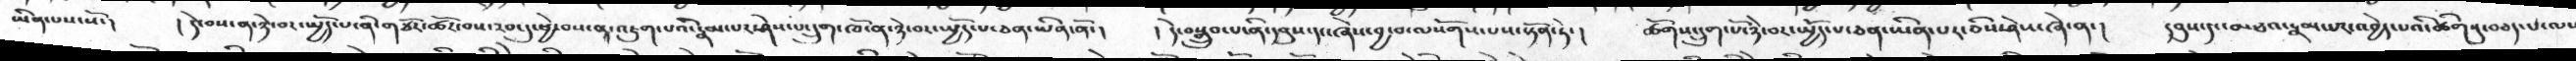ཡིན་པས་སོ་།  །དེ་བས་ན་ཉེ་བར་སྤྱོད་པ་ནི་གཙོར་ཚོར་བས་རབ་དུ་ཕྱེ་བས་ན་འཇུག་པའི་རྣམ་པར་ཤེས་པ་དྲུག་ཁོ་ན་ཉེ་བར་སྤྱོད་པ་ཅན་ཡིན་ནོ་།  །དེ་བསྒྲུབ་པ་ནི་དབུས་དང་ཞེས་བྱ་བ་ལསོགས་པས་སྟོན་ཏེ་།  ཚོགས་དྲུག་པོ་ཉེ་བར་སྤྱོད་པ་ཅན་ཡིན་པར་ཅིས་ཤེས་ཞེ་ན་།  དབུས་དང་མཐའ་རྣམ་པར་འབྱེད་པའི་ཚིགསུ་བཅད་པ་ལས
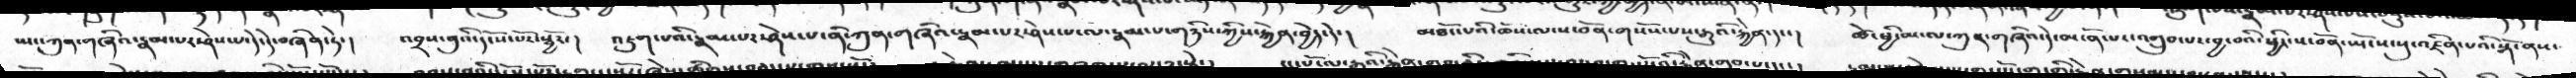ཡང་ཀུན་གཞིའ་རྣམ་པར་ཤེས་པ་དེ་དེ་བཞིན་ཏེ་།  འབྲས་བུའི་དངོས་པོར་སྦྱོར་།   འཇུག་པའི་རྣམ་པར་ཤེས་པ་ནི་ཀུན་གཞིའ་རྣམ་པར་ཤེས་པ་ལ་རྣམ་པ་གཉིས་ཀྱིས་རྐྱེན་བྱེད་དེ་།   མཐོང་པའི་ཆོས་ལ་ས་བོན་གསོས་པས་རྒྱུའི་རྐྱེན་དང་།   ཚེ་ཕྱི་མ་ལ་ཀུན་གཞིའ་དེ་མངོན་པར་འགྲུབ་པར་བྱ་བའི་ཕྱིར་ས་བོན་ཡོངས་སུ་འཛིན་པའི་སྒོ་ནས་
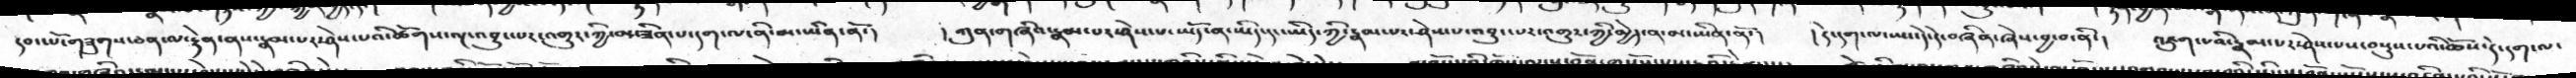རབ་ཡོང་གཟུགས་ཅན་ལ་རྟེན་ནས་རྣམ་པར་ཤེས་པའི་ཚོགས་ལྔ་འབྱུང་པར་འགྱུར་ཀྱི་མ་ཟིན་པ་དག་ལ་ནི་མ་ཡིན་ནོ་།   །ཀུན་གཞིའ་རྣམ་པར་ཤེས་པ་ཡོད་ན་ཡིད་དང་ཡིད་ཀྱི་རྣམ་པར་ཤེས་པ་འབྱུང་པར་འགྱུར་ཀྱི་མྱེད་ན་མ་ཡིན་ནོ་།   །དེ་དག་ལ་ཡང་དེ་དེ་བཞིན་ཞེས་བྱ་བ་ནི་།  འཇུག་པའི་རྣམ་པར་ཤེས་པས་བསྡུས་པའི་ཆོས་དེ་དག་ལ་
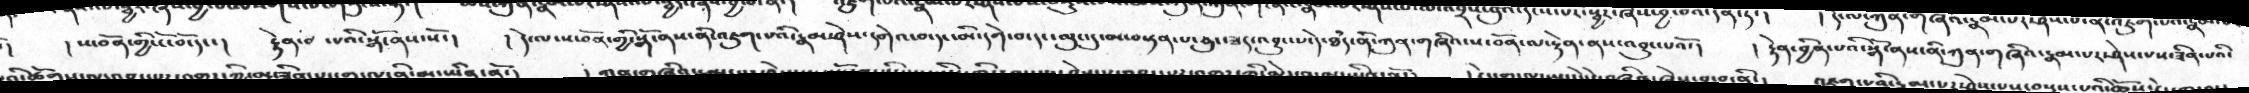་།  །ས་བོན་གྱི་ངོ་བོ་དང་།  རྟེན་པའི་སྒོ་ནས་སོ་།  །དེ་ལ་ས་བོན་གྱི་སྒོ་ནས་ནི་འཇུག་པའི་རྣམ་ཤེས་དགེའ་བ་དང་མི་དགེ་བ་དང་ལུང་དུ་མ་བསྟན་པ་ཅུང་ཟད་འབྱུང་པ་དེ་ཐདཾ་ནི་ཀུན་གཞིའ་ས་བོན་ལ་རྟེན་ནས་འབྱུང་པའོ་།  །རྟེན་བྱིན་པའི་སྒོ་ནས་ནི་ཀུན་གཞིའ་རྣམ་པར་ཤེས་པས་ཟིན་པའི་
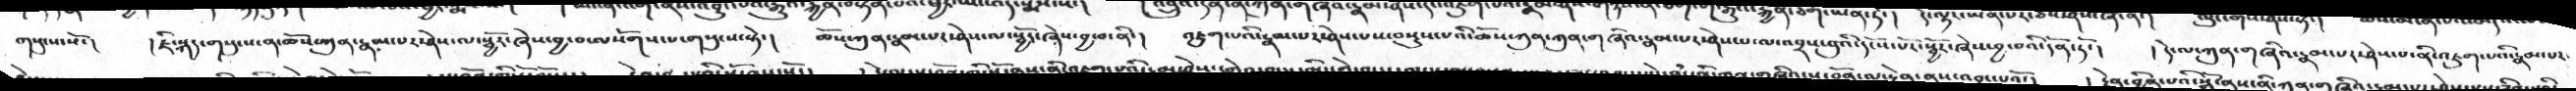གསུངས་སོ་།  །ཇི་སྐད་གསུངས་ན་ཆོས་ཀུན་རྣམ་པར་ཤེས་ལ་སྦྱོར་ཞེས་བྱ་བ་ལསོགས་པ་གསུངས་སྟེ་།  ཆོས་ཀུན་རྣམ་པར་ཤེས་པ་ལ་སྦྱོར་ཞེས་བྱ་བ་ནི་།  འཇུག་པའི་རྣམ་པར་ཤེས་པས་བསྡུས་པའི་ཆོས་ཀུན་ཀུན་གཞིའ་རྣམ་པར་ཤེས་པ་ལ་འབྲས་བུའི་དངོས་པོར་སྦྱོར་ཞེས་བྱ་བའི་དོན་ཏོ་།  །དེ་ལ་ཀུན་གཞིའ་རྣམ་པར་ཤེས་པ་ནི་འཇུག་པའི་རྣམ་པར་
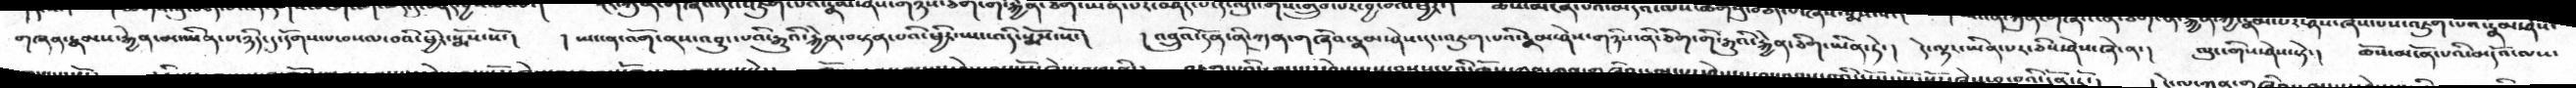གཞན་རྣམས་རྐྱེན་མ་ཡིན་པ་ཉིད་དུ་དོགས་པ་བསལ་བའི་ཕྱིར་སྨོས་སོ་།  །ཡང་ན་འགོ་ནས་འབྱུང་པའི་རྒྱུའི་རྐྱེན་བསྟན་པའི་ཕྱིར་ཡང་འདི་སྨོས་སོ་།   །འབྲུའི་དོན་ནི་ཀུན་གཞིའ་རྣམ་ཤེས་དང་འཇུག་པའི་རྣམ་ཤེས་གཉིས་ནི་ཅིག་གི་རྒྱུའི་རྐྱེན་ཅིག་ཡིན་ཏེ་།  དེ་ལྟར་ཡིན་པར་ཅིས་ཤེས་ཞེ་ན་།  ལུང་གིས་ཤེས་སྟེ་།  ཆོས་མངོན་པའི་མདོའ་ལས་
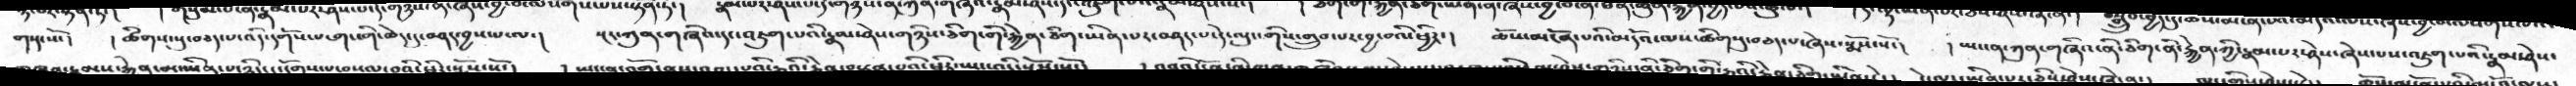གསུངསོ་།  །ཚིགས་སུ་བཅད་པ་འདི་དགོས་པ་གང་གི་ཆེད་དུ་བཤད་བྱས་པ་ལ་།   སྔར་ཀུན་གཞི་དང་འཇུག་པའི་རྣམ་ཤེས་གཉིས་ཅིག་གི་རྐྱེན་ཅིག་ཡིན་པར་བཤད་པ་དེ་ལུང་གིས་གྲུབ་པར་བྱ་བའི་ཕྱིར་།  ཆོས་མངོན་པའི་མདོའ་ལས་ཚིགསུ་བཅད་པ་ཞེས་སྨོས་སོ་།  །ཡང་ན་ཀུན་གཞིའ་ནི་ཅིག་ནི་རྐྱེན་ཀྱི་རྣམ་པར་ཤེས་ཞེས་པས་འཇུག་པའི་རྣམ་ཤེས་
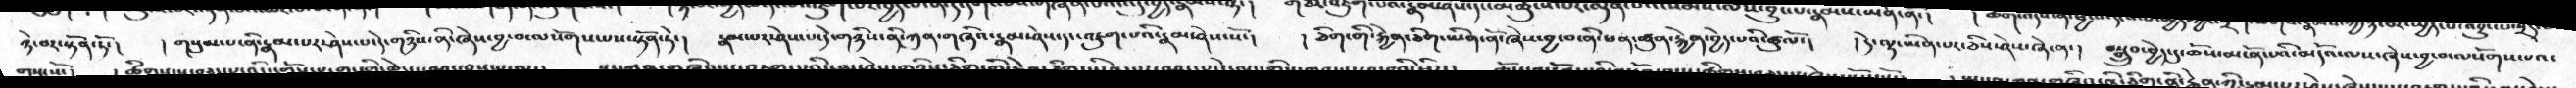ཉེ་བར་སྟོན་ཏོ་།  །གསུམ་པ་ནི་རྣམ་པར་ཤེས་པ་དེ་གཉིས་ནི་ཞེས་བྱ་བ་ལསོགས་པས་སྟོན་ཏེ་།  རྣམ་པར་ཤེས་པ་དེ་གཉིས་ནི་ཀུན་གཞིའ་རྣམ་ཤེས་དང་འཇུག་པའི་རྣམ་ཤེས་སོ་།  །ཅིག་གི་རྐྱེན་ཅིག་ཡིན་ནོ་ཞེས་བྱ་བ་ནི་ཕན་ཚུན་རྐྱེན་བྱེད་པའི་ཚུལོ་།   །དེ་ལྟ་ཡིན་པར་ཅིས་ཤེས་ཞེ་ན་།  བསྒྲུབ་བྱེད་དུ་ཆོས་མངོན་པའི་མདོའ་ལས་ཞེས་བྱ་བ་ལསོགས་པའ་
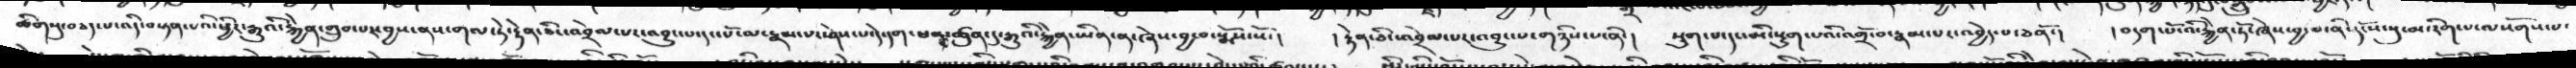ཚིགསུ་བཅད་པ་འདི་བསྟན་པའི་ཕྱིར་རྒྱུའི་རྐྱེན་གྲུབ་པར་བྱས་ནས་གལ་ཏེ་རྟེན་ཅིང་འབྲེལ་པར་འབྱུང་པ་དང་པོ་ལ་རྣམ་པར་ཤེས་པ་དེ་དག་ཕན་ཚུན་དུ་རྒྱུའི་རྐྱེན་ཡིན་ན་ཞེས་བྱ་བ་སྨོས་སོ་།  །རྟེན་ཅིང་འབྲེལ་པར་འབྱུང་པ་གཉིས་པ་ནི་།  སྡུག་པ་དང་མི་སྡུག་པའི་འགྲོ་བ་རྣམ་པར་འབྱེད་པ་ཅནོ་།  །བདག་པོ་འི་རྐྱེན་ཏོ་ཞེས་བྱ་བ་ནི་དངོས་སུ་མ་རིག་པ་ལསོགས་པ་
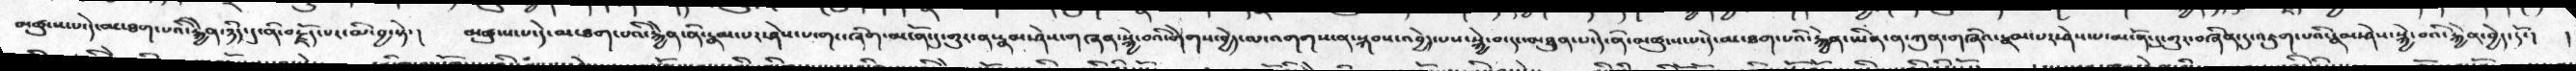མཚུངས་པ་དེ་མ་ཐག་པའི་རྐྱེན་ཉིད་དུ་ནི་བརྗོད་པར་མི་བྱ་སྟེ་།  མཚུངས་པ་དེ་མ་ཐག་པའི་རྐྱེན་ནི་རྣམ་པར་ཤེས་པ་གང་ཞིག་མངོན་དུ་གྱུར་ན་རྣམ་ཤེས་གཞན་སྐྱེ་བའི་གེགས་བྱེད་ལ་འགགས་ན་སྐབས་འབྱེད་པས་སྐྱེ་བ་དང་མཐུན་པ་དེ་ནི་མཚུངས་པ་དེ་མ་ཐག་པའི་རྐྱེན་ཡིན་ན་ཀུན་གཞིའ་རྣམ་པར་ཤེས་པ་མངོན་དུ་གྱུར་བཞིན་དུ་འཇུག་པའི་རྣམ་ཤེས་སྐྱེ་བའི་རྐྱེན་བྱེད་དོ་།  །
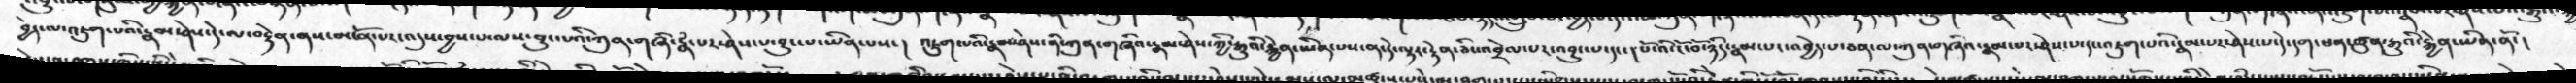བྱེད་ལ་འཇུག་པའི་རྣམ་ཤེས་དེ་ལ་བརྟེན་ནས་མངོན་པར་འདུས་བྱས་པ་ལས་བྱུང་པའི་ཀུན་གཞི་རྣཾ་པར་ཤེས་པ་བྱུང་པ་ཡིན་པས་།  འཇུག་པའི་རྣམ་ཤེས་ནི་ཀུན་གཞིའ་རྣམ་ཤེས་ཀྱི་རྒྱུའི་རྐྱེན་ཡིན་པས་ན་དེ་ལྟར་རྟེན་ཅིང་འབྲེལ་པར་འབྱུང་པ་དང་། པོ་འི་ངོ་བོ་ཉིད་རྣམ་པར་འབྱེད་པ་ཅན་ལ་ཀུན་གཞིའ་རྣམ་པར་ཤེས་པ་དང་འཇུག་པའི་རྣམ་པར་ཤེས་པ་དེ་དག་ཕན་ཚུན་རྒྱུའི་རྐྱེན་ཡིན་ནོ་།
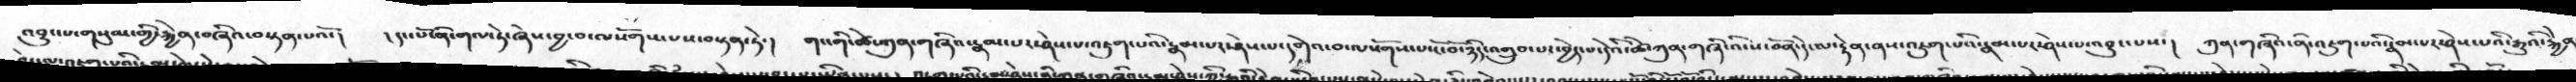འབྱུང་པ་གསུམ་གྱི་རྐྱེན་བཞིའ་བསྟན་པའོ་།  །དང་པོ་ནི་གལ་ཏེ་ཞེས་བྱ་བ་ལསོགས་པས་བསྟན་ཏེ་།  གང་གི་ཚེ་ཀུན་གཞིའ་རྣམ་པར་ཤེས་པ་འཇུག་པའི་རྣམ་པར་ཤེས་པ་དགེའ་བ་ལསོགས་པས་ངོ་བོ་ཉིད་འགྲུབ་པར་བྱེད་པ་དེའི་ཚེ་ཀུན་གཞི་འི་ས་བོན་དེ་ལ་རྟེན་ནས་འཇུག་པའི་རྣམ་པར་ཤེས་པ་འབྱུང་པས་།  ཀུན་གཞིའ་ནི་འཇུག་པའི་རྣམ་པར་ཤེས་པའི་རྒྱུའི་རྐྱེན་
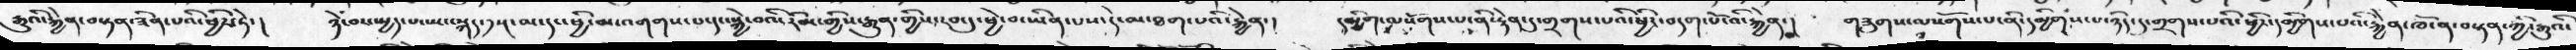རྒྱུའི་རྐྱེན་བསྟན་ཟིན་པའི་ཕྱིར་ཏེ་།  ཉེ་བར་སྤྱད་པ་ཡང་སྐད་༡སྔ་མ་དང་ཕྱི་མ་འགགས་པ་དང་སྐྱེ་བའི་རིམ་གྱིས་རྒྱུན་གྱིས་བར་དུ་ཕྱེ་བ་ཡིན་པས་དེ་མ་ཐག་པའི་རྐྱེན་།  དམྱིག་ལསོགས་པ་ནི་རྟེན་དུ་གྲགས་པའི་ཕྱིར་བདག་པོ་འི་རྐྱེན་།  གཟུགས་ལསོགས་པ་ནི་དམྱིགས་པ་ཉིད་དུ་གྲགས་པའི་ཕྱིར་དམྱིགས་པའི་རྐྱེན་ཁོ་ན་བསྟན་ཀྱི་རྒྱུའི་
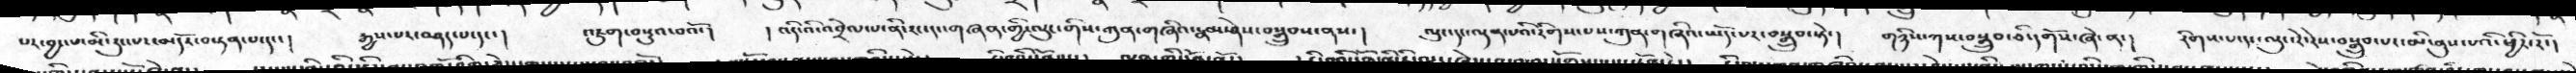པར་བྱང་པ་མི་རུང་པར་མདོར་བསྟན་པ་དང་།  རྒྱས་པར་བཤད་པ་དང་།  འཇུག་བསྡུའ་བའོ་།   །འདི་འི་འབྲེལ་པ་ནི་རང་དང་གཞན་གྱི་ལུང་གིས་ཀུན་གཞིའ་རྣམ་ཤེས་བསྒྲུབས་ནས་།  ལུང་དང་ལྡན་པའི་རིགས་པས་ཀུན་གཞིའ་ཡོད་པར་བསྒྲུབ་སྟེ་།  གཉིས་ཀས་བསྒྲུབ་ཅི་དགོས་ཞེ་ན་།  རིགས་པ་དང་ལུང་རེ་རེས་བསྒྲུབ་པར་མི་ནུས་པའི་ཕྱིར་རོ་།
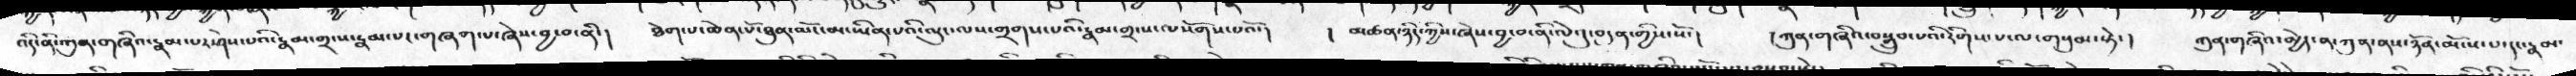འདི་ནི་ཀུན་གཞིའ་རྣམ་པར་ཤེས་པའི་རྣམ་གྲངས་རྣམ་པར་གཞག་པ་ཞེས་བྱ་བ་ནི་།  ཐེག་པ་ཆེན་པོ་ཐུན་མོང་མ་ཡིན་པའི་ལུང་ལས་གྲགས་པའི་རྣམ་གྲངས་ལསོགས་པའོ་།    །མཚན་ཉིད་ཀྱིས་ཞེས་བྱ་བ་ནི་ལེའུ་བདུན་གྱིས་སོ་།   །ཀུན་གཞིའ་བསྒྲུབ་པའི་རིགས་པ་ལ་གསུམ་སྟེ་།  ཀུན་གཞིའ་མྱེད་ན་ཀུན་ནས་ཉོན་མོངས་པ་དང་རྣམ་
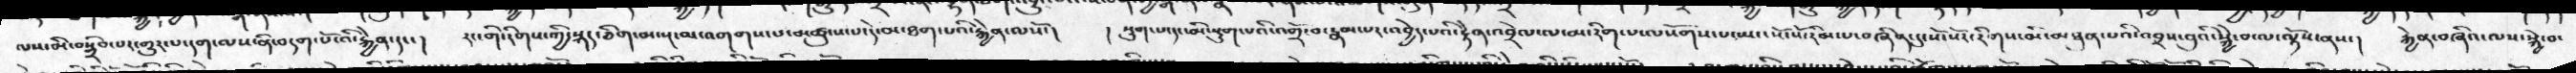ལས་མི་བསྒྲིབ་པར་གྱུར་པ་དག་ལས་ནི་བདག་པོ་འི་རྐྱེན་དང་།  རང་གི་རིགས་ཀྱི་སྐད་ཅིག་མ་སྔ་མ་འགགས་པ་མཚུངས་པ་དེ་མ་ཐག་པའི་རྐྱེན་ལསོ་།  །སྡུག་པ་དང་མི་སྡུག་པའི་འགྲོ་བ་རྣམ་པར་འབྱེད་པའི་རྟེན་འབྲེལ་ལ་མ་རིག་པ་ལསོགས་པ་ཡང་སོ་སོ་རིམ་པ་བཞིན་དུ་སོ་སོར་རིགས་མི་མཐུན་པའི་འབྲས་བུའི་སྐྱེ་བ་ལ་ལྟོས་ནས་།  རྐྱེན་བཞིའ་ལས་སྐྱེ་བ་
